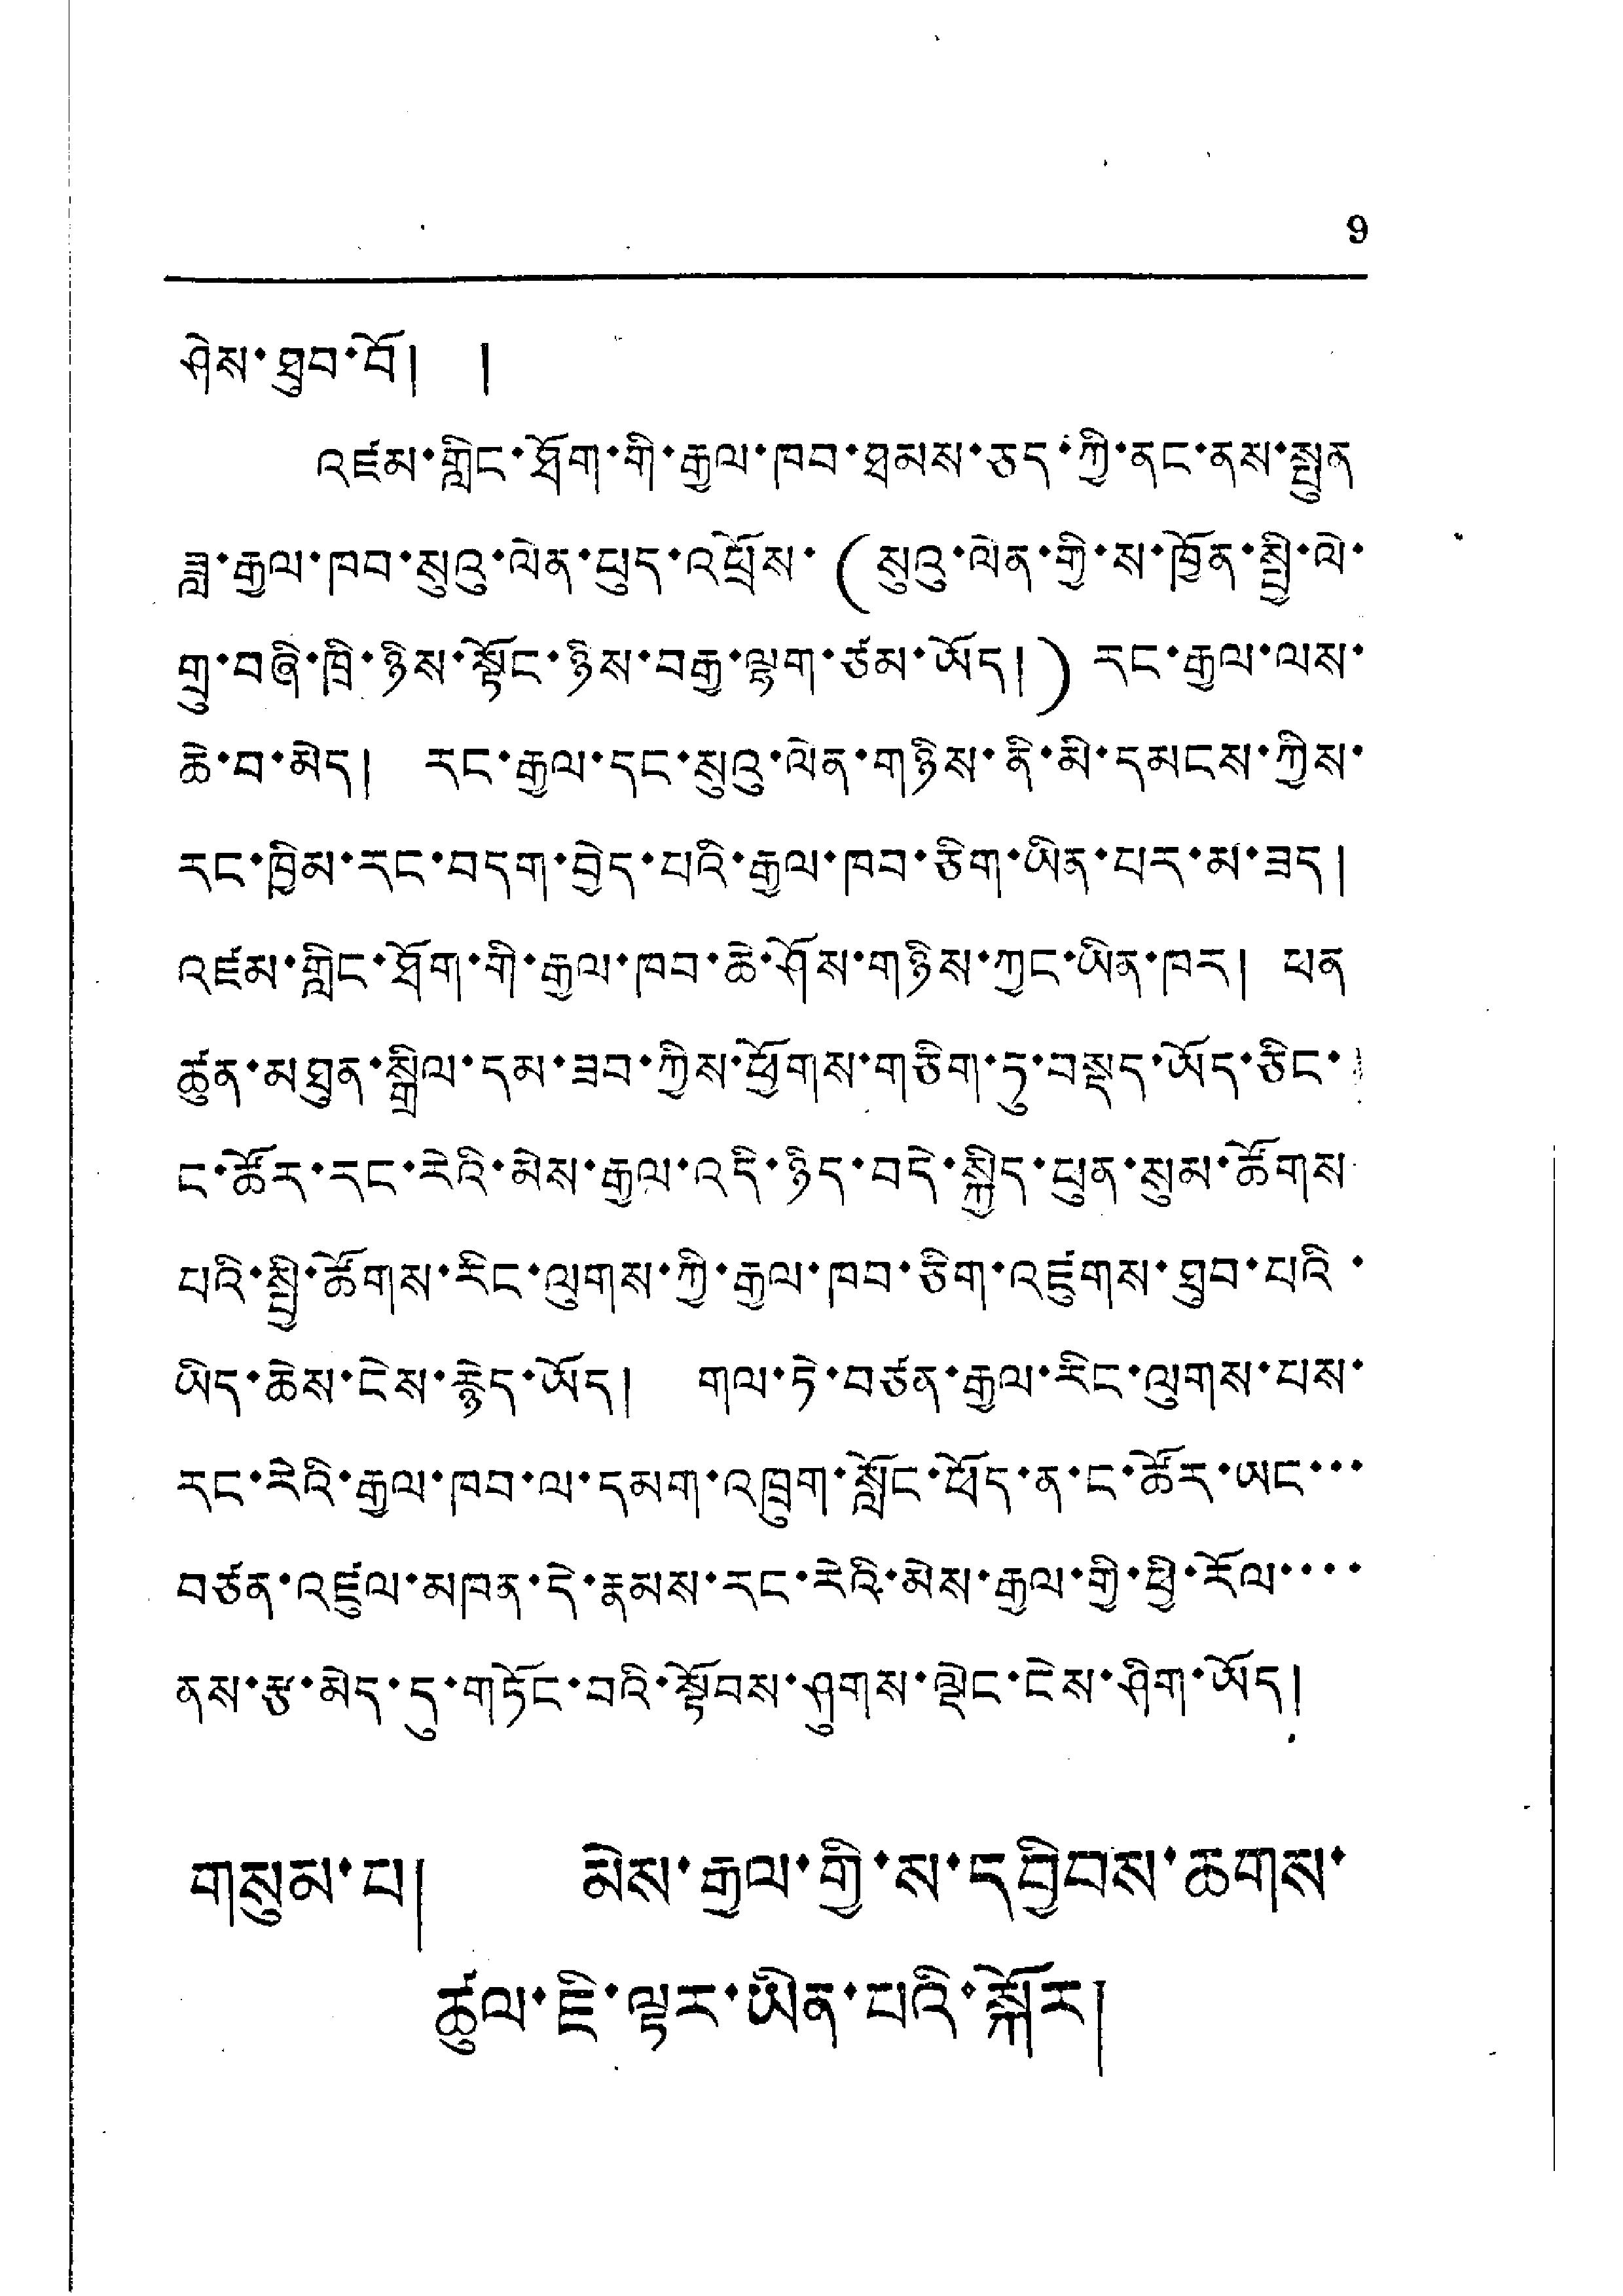9
ཤེས་ཐུབ་བོ། །
འཛམ་གླིང་ཐོག་གི་རྒྱལ་ཁབ་ཐམས་ཅད་ཀྱི་ནང་ནས་སྤུན
ཟླ་རྒྱལ་ཁབ་སུའུ་ལེན་ཕུད་འཕྲོས་ (སུའུ་ལེན་གྱི་ས་ཁྱོན་སྤྱི་ལེ་
གྲུ་བཞི་ཁྲི་ཉིས་སྟོང་ཉིས་བརྒྱ་ལྷག་ཙམ་ཡོད།) རང་རྒྱལ་ལས་
ཆེ་བ་མེད། རང་རྒྱལ་དང་སུའུ་ལེན་གཉིས་ནི་མི་དམངས་ཀྱིས་
རང་ཁྱིམ་རང་བདག་བྱེད་པའི་རྒྱལ་ཁབ་ཅིག་ཡིན་པར་མ་ཟད།
འཛམ་གླིང་ཐོག་གི་རྒྱལ་ཁབ་ཆེ་ཤོས་གཉིས་ཀྱང་ཡིན་ཁར། ཕན་
ཚུན་མཐུན་སྒྲིལ་དམ་ཟབ་ཀྱིས་ཕྱོགས་གཅིག་ཏུ་བསྡད་ཡོད་ཅིང་།
ང་ཚོར་རང་རེའི་མེས་རྒྱལ་འདི་ཉིད་བདེ་སྐྱིད་ཕུན་སུམ་ཚོགས
པའི་སྤྱི་ཚོགས་རིང་ལུགས་ཀྱི་རྒྱལ་ཁབ་ཅིག་འཛུགས་ཐུབ་པའི་་
ཡིད་ཆེས་ངེས་རྙེད་ཡོད། གལ་ཏེ་བཙན་རྒྱལ་རིང་ལུགས་པས་
རང་རེའི་རྒྱལ་ཁབ་ལ་དམག་འཁྲུག་སློང་ཕོད་ན་ང་ཚོར་ཡང་་་
བཙན་འཛུལ་མཁན་དེ་རྣམས་རང་རེའི་མེས་རྒྱལ་གྱི་ཕྱི་རོལ་་་་
ནས་རྩ་མེད་དུ་གཏོང་བའི་སྟོབས་ཤུགས་ལྡེང་ངེས་ཤིག་ཡོད།
གསུམ་པ། མེས་རྒྱལ་གྱི་ས་དབྱིབས་ཆགས་
ཚུལ་ཇི་ལྟར་ཡིན་པའི་སྐོར།
